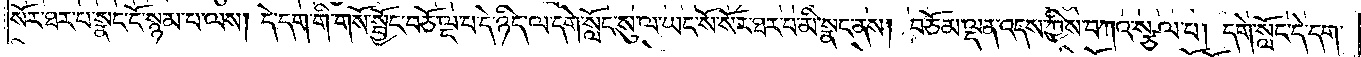སོར་ཐར་པ་སྣང་ངོ་སྙམ་པ་ལས། དེ་དག་གི་གསོ་སྦྱོང་བཅོ་ལྔ་པ་དེ་ཉིད་ལ་དགེ་སློང་སུ་ལ་ཡང་སོ་སོར་ཐར་པ་མི་སྣང་ནས། བཅོམ་ལྡན་འདས་ཀྱིས་བཀའ་སྩལ་པ། དགེ་སློང་དེ་དག་
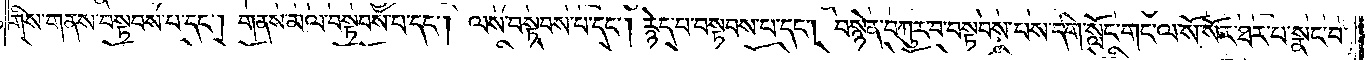གིས་གནས་བསྟབས་པ་དང༌། གནས་མལ་བསྟབས་པ་དང༌། ལས་བསྟབས་པ་དང༌། རྙེད་པ་བསྟབས་པ་དང༌། བསྙེན་བཀུར་བ་བསྟབས་པས་དགེ་སློང་གང་ལ་སོ་སོར་ཐར་པ་སྣང་བ་
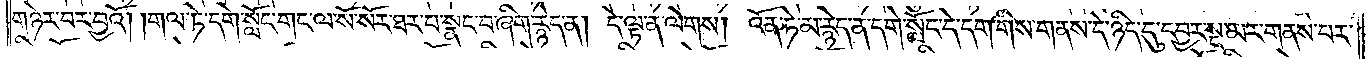གཉེར་བར་བྱའོ། །གལ་ཏེ་དགེ་སློང་གང་ལ་སོ་སོར་ཐར་པ་སྣང་བ་ཞིག་རྙེད་ན། དེ་ལྟ་ན་ལེགས། འོན་ཏེ་མ་རྙེད་ན་དགེ་སློང་དེ་དག་གིས་གནས་དེ་ཉིད་དུ་དབྱར་སྔ་མར་གནས་པར་
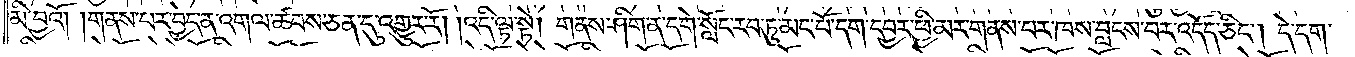མི་བྱའོ། །གནས་པར་བྱེད་ན་འགལ་ཚབས་ཅན་དུ་འགྱུར་རོ། །འདི་ལྟ་སྟེ། གནས་ཤིག་ན་དགེ་སློང་རབ་ཏུ་མང་པོ་དག་དབྱར་ཕྱི་མར་གནས་པར་ཁས་བླངས་པར་འདོད་ཅིང༌། དེ་དག་
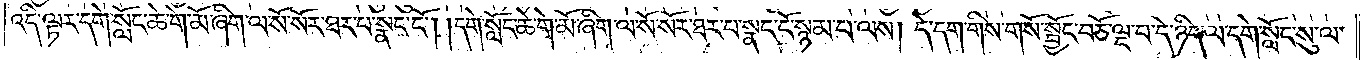འདི་ལྟར་དགེ་སློང་ཆེ་གེ་མོ་ཞིག་ལ་སོ་སོར་ཐར་པ་སྣང་ངོ༌། །དགེ་སློང་ཆེ་གེ་མོ་ཞིག་ལ་སོ་སོར་ཐར་པ་སྣང་ངོ་སྙམ་པ་ལས། དེ་དག་གིས་གསོ་སྦྱོང་བཅོ་ལྔ་པ་དེ་ཉིད་ལ་དགེ་སློང་སུ་ལ་
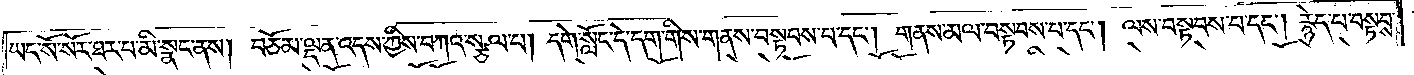ཡང་སོ་སོར་ཐར་པ་མི་སྣང་ནས། བཅོམ་ལྡན་འདས་ཀྱིས་བཀའ་སྩལ་པ། དགེ་སློང་དེ་དག་གིས་གནས་བསྟབས་པ་དང༌། གནས་མལ་བསྟབས་པ་དང༌། ལས་བསྟབས་པ་དང༌། རྙེད་པ་བསྟབས་
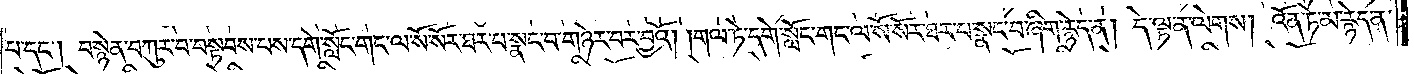པ་དང༌། བསྙེན་བཀུར་བ་བསྟབས་པས་དགེ་སློང་གང་ལ་སོ་སོར་ཐར་པ་སྣང་བ་གཉེར་བར་བྱའོ། །གལ་ཏེ་དགེ་སློང་གང་ལ་སོ་སོར་ཐར་པ་སྣང་བ་ཞིག་རྙེད་ན། དེ་ལྟ་ན་ལེགས། འོན་ཏེ་མ་རྙེད་ན་
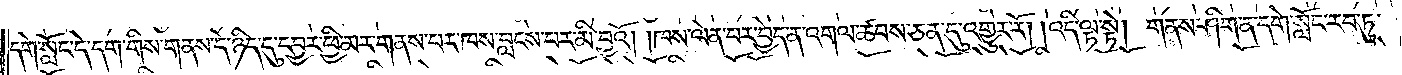དགེ་སློང་དེ་དག་གིས་གནས་དེ་ཉིད་དུ་དབྱར་ཕྱི་མར་གནས་པར་ཁས་བླངས་པར་མི་བྱའོ། །ཁས་ལེན་པར་བྱེད་ན་འགལ་ཚབས་ཅན་དུ་འགྱུར་རོ། །འདི་ལྟ་སྟེ། གནས་ཤིག་ན་དགེ་སློང་རབ་ཏུ་
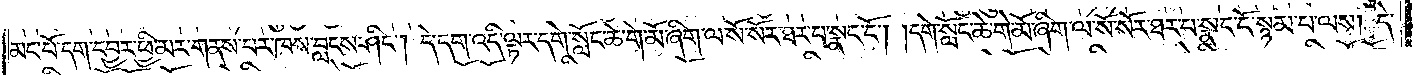མང་པོ་དག་དབྱར་ཕྱི་མར་གནས་པར་ཁས་བླངས་ཤིང༌། དེ་དག་འདི་ལྟར་དགེ་སློང་ཆེ་གེ་མོ་ཞིག་ལ་སོ་སོར་ཐར་པ་སྣང་ངོ༌། །དགེ་སློང་ཆེ་གེ་མོ་ཞིག་ལ་སོ་སོར་ཐར་པ་སྣང་ངོ་སྙམ་པ་ལས། དེ་
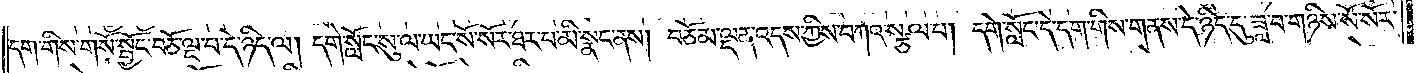དག་གིས་གསོ་སྦྱོང་བཅོ་ལྔ་པ་དེ་ཉིད་ལ། དགེ་སློང་སུ་ལ་ཡང་སོ་སོར་ཐར་པ་མི་སྣང་ནས། བཅོམ་ལྡན་འདས་ཀྱིས་བཀའ་སྩལ་པ། དགེ་སློང་དེ་དག་གིས་གནས་དེ་ཉིད་དུ་ཟླ་བ་གཉིས་སོ་སོར་
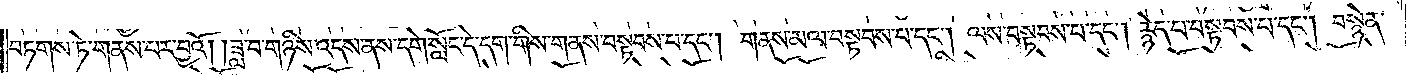བཏགས་ཏེ་གནས་པར་བྱའོ། །ཟླ་བ་གཉིས་འདས་ནས་དགེ་སློང་དེ་དག་གིས་གནས་བསྟབས་པ་དང༌། གནས་མལ་བསྟབས་པ་དང༌། ལས་བསྟབས་པ་དང༌། རྙེད་པ་བསྟབས་པ་དང༌། བསྙེན་
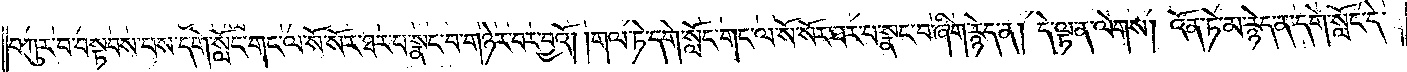བཀུར་བ་བསྟབས་པས་དགེ་སློང་གང་ལ་སོ་སོར་ཐར་པ་སྣང་བ་གཉེར་བར་བྱའོ། །གལ་ཏེ་དགེ་སློང་གང་ལ་སོ་སོར་ཐར་པ་སྣང་བ་ཞིག་རྙེད་ན། དེ་ལྟ་ན་ལེགས། འོན་ཏེ་མ་རྙེད་ན་དགེ་སློང་དེ་
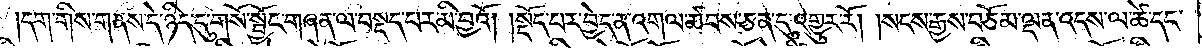དག་གིས་གནས་དེ་ཉིད་དུ་གསོ་སྦྱོང་གཞན་ལ་བསྡད་པར་མི་བྱའོ། །སྡོད་པར་བྱེད་ན་འགལ་ཚབས་ཅན་དུ་འགྱུར་རོ། །སངས་རྒྱས་བཅོམ་ལྡན་འདས་ལ་ཚེ་དང་
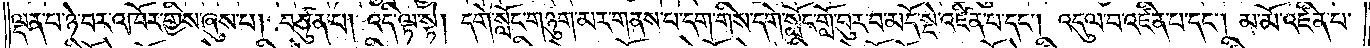ལྡན་པ་ཉེ་བར་འཁོར་གྱིས་ཞུས་པ། བཙུན་པ། འདི་ལྟ་སྟེ། དགེ་སློང་གཉུག་མར་གནས་པ་དག་གིས་དགེ་སློང་གློ་བུར་བ་མདོ་སྡེ་འཛིན་པ་དང༌། འདུལ་བ་འཛིན་པ་དང༌། མ་མོ་འཛིན་པ་
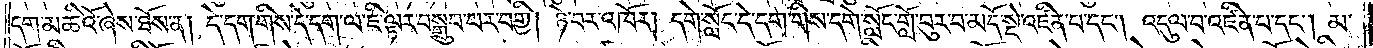དག་མཆིའོ་ཞེས་ཐོས་ན། དེ་དག་གིས་དེ་དག་ལ་ཇི་ལྟར་བསྒྲུབ་བར་བགྱི། ཉེ་བར་འཁོར། དགེ་སློང་དེ་དག་གིས་དགེ་སློང་གློ་བུར་བ་མདོ་སྡེ་འཛིན་པ་དང༌། འདུལ་བ་འཛིན་པ་དང༌། མ་
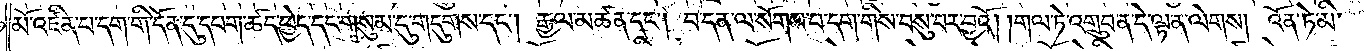མོ་འཛིན་པ་དག་གི་དོན་དུ་དཔག་ཚད་ཕྱེད་དང་གསུམ་དུ་གདུགས་དང༌། རྒྱལ་མཚན་དང༌། བ་དན་ལ་སོགས་པ་དག་གིས་བསུ་བར་བྱའོ། །གལ་ཏེ་འགྲུབ་ན་དེ་ལྟ་ན་ལེགས། འོན་ཏེ་མི་
